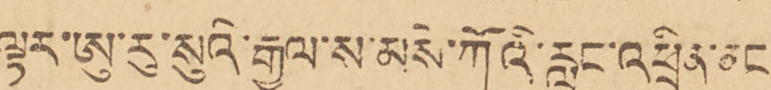ལྟར་ཨུ་རུ་སུའི་རྒྱལ་ས་མསེ་ཀོའི་རླུང་འཕྲིན་མང་
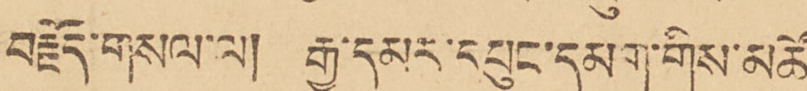བརྗོད་གསལ་ལ། རྒྱ་དམར་དཔུང་དམག་གིས་མཚོ་
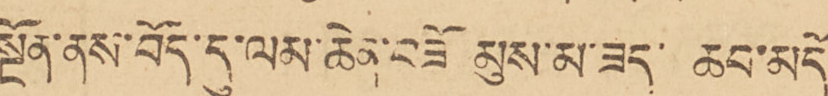སྔོན་ནས་བོད་དུ་ལམ་ཆེན་བཟོ མུས་མ་ཟད་ཆབ་མདོ་
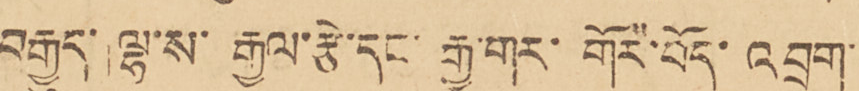བརྒྱུད་ ལྷ་ས་ རྒྱལ་རྩེ་དང་ རྒྱ་གར་ གོར་བོད་ འབྲུག་
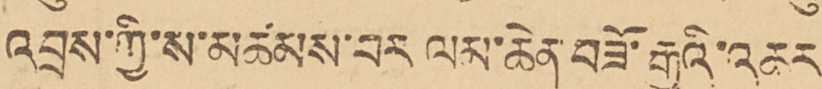འབྲས་ཀྱི་ས་མཚམས་བར ལམ་ཆེན་བཟོ་རྒྱུའི་འཆར་
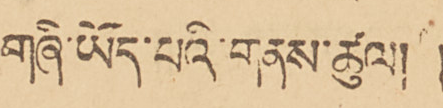གཞི་ཡོད་པའི་གནས་ཚུལ། །
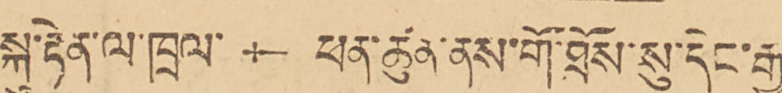སྐུ་རྟེན་ལ་ཁྲལ་ † ཕན་ཚུལ་ནས་གོ་ཐོས་སུ་དེང་རྒྱ་
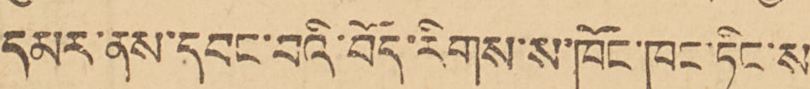དམར་ནས་དབར་བའི་བོད་རིགས་ས་ཁོང་ཁང་ཏིང་ས་
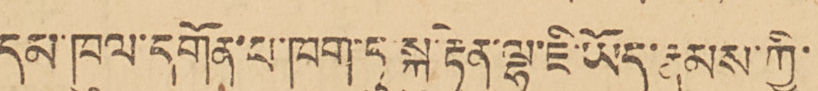དམ་ཁུལ་དགོན་པ་ཁག་ཏུ་སྐུ་རྟེན་ལྷ་ཇི་ཡོད་རྣམས་ཀྱི་
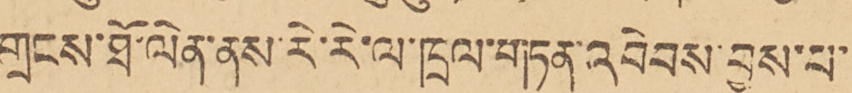གྲངས་ཐོ་ལེན་ནས་རེ་རེ་ལ་ཁྲལ་གཏན་འབེབས་བྱས་པ་
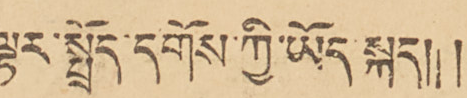ལྟར་སྤྲོད་དགོས་ཀྱི་ཡོད་སྐད། །
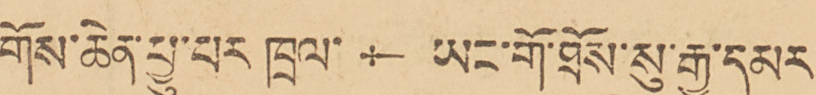གོས་ཆེན་ཕྱུ་པར ཁྲལ་ † ཡང་གོ་ཐོས་སུ་རྒྱ་དམར་
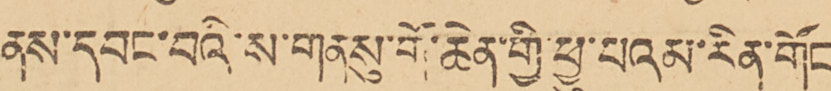ནས་དབང་བའི་ས་གནསུ་གོ་ཆེན་གྱི་ཕྱུ་པའམ་རིན་གོང་
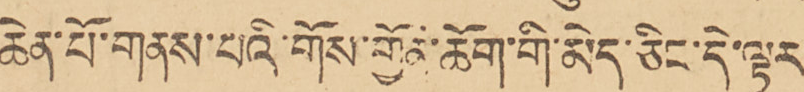ཆེན་པོ་གནས་པའི་གོས་གྱོན་ཆོག་གི་མེད་ཅིང་དེ་ལྟར་
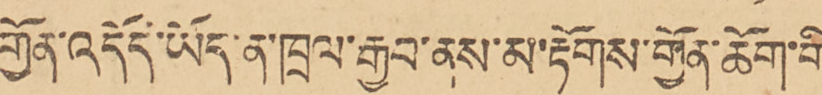གྱོན་འདོད་ཡོན་ན་ཁྲལ་རྒྱབ་ནས་མ་རྟོགས་གྱོན་ཆོག་གི་
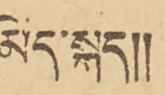མེད་སྐད།།
